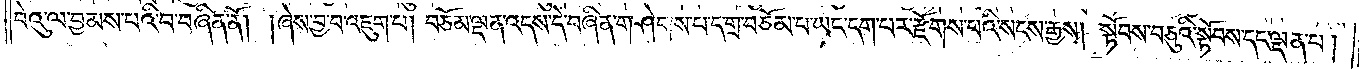བེའུ་ལ་བྱམས་པའི་བ་བཞིན་ནོ། །ཞེས་བྱ་བ་འཇུག་པ། བཅོམ་ལྡན་འདས་དེ་བཞིན་གཤེགས་པ་དགྲ་བཅོམ་པ་ཡང་དག་པར་རྫོགས་པའི་སངས་རྒྱས། སྟོབས་བཅུའི་སྟོབས་དང་ལྡན་པ་།
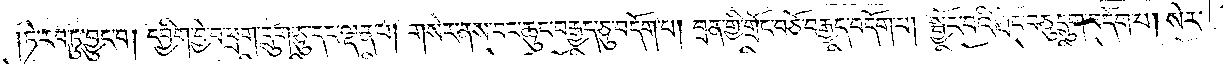ཏེ་རབ་ཏུ་བྱུང་བ། དབྱིག་བྱེ་བ་ཕྲག་དྲུག་ཅུ་དང་ལྡན་པ། གསེར་ནས་བང་ཆུང་བརྒྱད་ཅུ་བདོག་པ། བྲན་གྱི་གྲོང་བཅོ་བརྒྱད་བདོག་པ། སྦྱོར་བའི་གྲོང་བཅུ་དྲུག་བདོག་པ། སེར་
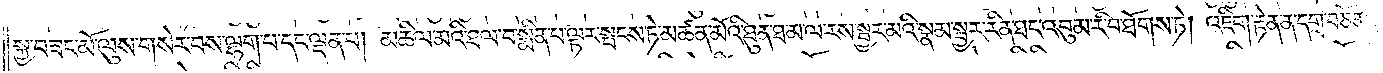སྐྱ་བཟང་མོ་ལུས་གསེར་བས་ལྷག་པ་དང་ལྡན་པ། མཆིལ་མའི་ཐལ་བ་སྨིན་པ་ལྟར་སྤངས་ཏེ་མཚན་མོའི་ཐུན་ཐ་མ་ལ་རས་སྦྱར་མའི་སྣམ་སྦྱར་རིན་ཐང་འབུམ་རི་བ་ཐོགས་ཏེ། འཇིག་རྟེན་ན་དགྲ་བཅོམ་
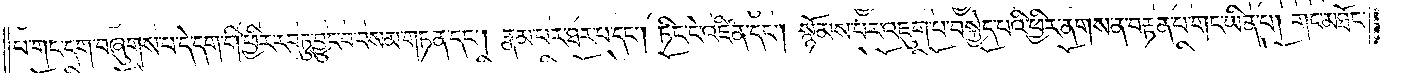པ་གང་དག་བཞུགས་པ་དེ་དག་གི་ཕྱིར་རབ་ཏུ་བྱུང་བ་བསམ་གཏན་དང༌། རྣམ་པར་ཐར་པ་དང༌། ཏིང་ངེ་འཛིན་དང༌། སྙོམས་པར་འཇུག་པ་བསྐྱེད་པའི་ཕྱིར་ནགས་ན་བརྟན་པ་གང་ཡིན་པ། གང་མཐོང་
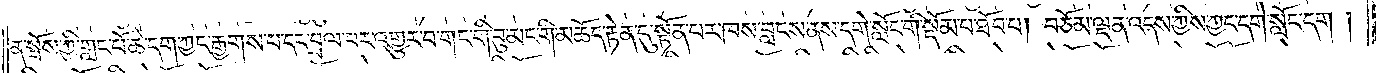ན་སྤོས་ཀྱི་གླང་པོ་ཆེ་དག་ཀྱང་རྒྱགས་པ་དང་བྲལ་བར་འགྱུར་བ་གང་གི་བུ་མང་གི་མཆོད་རྟེན་དུ་སྟོན་པར་ཁས་བླངས་ནས་དགེ་སློང་གི་སྡོམ་པ་ཐོབ་པ། བཅོམ་ལྡན་འདས་ཀྱིས་ཀྱང་དགེ་སློང་དག།
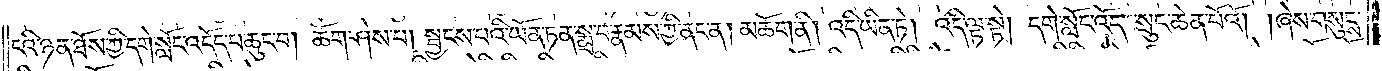ངའི་ཉན་ཐོས་ཀྱི་དགེ་སློང་འདོད་པ་ཆུང་བ། ཆོག་ཤེས་པ། སྦྱངས་པའི་ཡོན་ཏན་སྨྲ་བ་རྣམས་ཀྱི་ནང་ན། མཆོག་ནི། འདི་ཡིན་ཏེ། འདི་ལྟ་སྟེ། དགེ་སློང་འོད་སྲུང་ཆེན་པོའོ། །ཞེས་གསུངས་
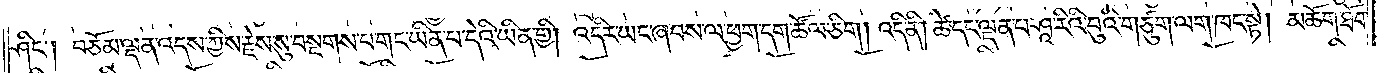ཤིང༌། བཅོམ་ལྡན་འདས་ཀྱིས་རྗེས་སུ་བསྔགས་པ་གང་ཡིན་པ་དེའི་ཡིན་གྱི། འདིར་ཡང་ཞབས་ལ་ཕྱག་དག་ཚོལ་ཅིག། འདི་ནི། ཚེ་དང་ལྡན་པ་ཤཱ་རིའི་བུའི་གཙུག་ལག་ཁང་སྟེ། མཆོག་ཐོབ་
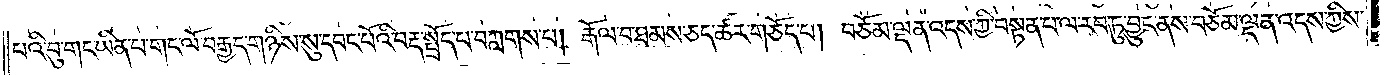པའི་བུ་གང་ཡིན་པ་གང་ལོ་བརྒྱད་གཉིས་སུ་དབང་པོའི་བརྡ་སྤྲོད་པ་བཀླགས་པ། རྒོལ་བ་ཐམས་ཅད་ཚར་གཅོད་པ། བཅོམ་ལྡན་འདས་ཀྱི་བསྟན་པ་ལ་རབ་ཏུ་བྱུང་ནས་བཅོམ་ལྡན་འདས་ཀྱིས་
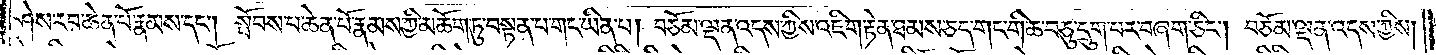ཤེས་རབ་ཆེན་པོ་རྣམས་དང༌། སྤོབས་པ་ཆེན་པོ་རྣམས་ཀྱི་མཆོག་ཏུ་བསྟན་པ་གང་ཡིན་པ། བཅོམ་ལྡན་འདས་ཀྱིས་འཇིག་རྟེན་ཐམས་ཅད་གང་གི་ཆ་བཅུ་དྲུག་པར་བཞག་ཅིང༌། བཅོམ་ལྡན་འདས་ཀྱིས།
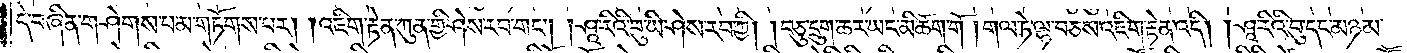དེ་བཞིན་གཤེགས་པ་མ་གཏོགས་པར། །འཇིག་རྟེན་ཀུན་གྱི་ཤེས་རབ་གང༌། །ཤཱ་རིའི་བུ་ཡི་ཤེས་རབ་ཀྱི། །བཅུ་དྲུག་ཆར་ཡང་མི་ཆོག་གོ །གལ་ཏེ་ལྷ་བཅས་འཇིག་རྟེན་འདི། །ཤཱ་རིའི་བུ་དང་མཉམ་
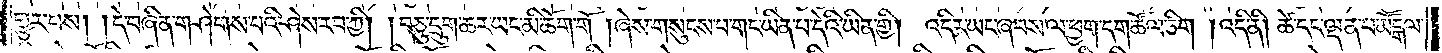གྱུར་པས། །དེ་བཞིན་གཤེགས་པའི་ཤེས་རབ་ཀྱི། །བཅུ་དྲུག་ཆར་ཡང་མི་ཆོག་གོ །ཞེས་གསུངས་པ་གང་ཡིན་པ་དེའི་ཡིན་གྱི། འདིར་ཡང་ཞབས་ལ་ཕྱག་དག་ཚོལ་ཅིག །འདི་ནི། ཚེ་དང་ལྡན་པ་མཽདྒལ་
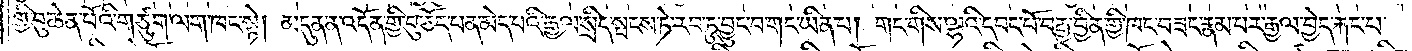གྱི་བུ་ཆེན་པོའི་གཙུག་ལག་ཁང་སྟེ། མདུན་ན་འདོན་གྱི་བུ་ཅོད་པན་མེད་པའི་རྒྱལ་སྲིད་སྤངས་ཏེ་རབ་ཏུ་བྱུང་བ་གང་ཡིན་པ། གང་གིས་ལྷའི་དབང་པོ་བརྒྱ་བྱིན་གྱི་ཁང་བཟང་རྣམ་པར་རྒྱལ་བྱེད་རྐང་པ་
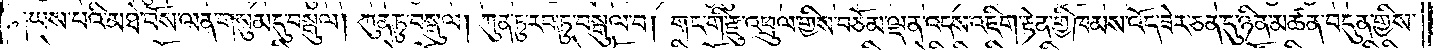གཡས་པའི་མཐེ་བོས་ལན་གསུམ་དུ་བསྒུལ། ཀུན་ཏུ་བསྒུལ། ཀུན་ཏུ་རབ་ཏུ་བསྒུལ་བ། གང་གི་རྫུ་འཕྲུལ་གྱིས་བཅོམ་ལྡན་འདས་འཇིག་རྟེན་གྱི་ཁམས་འོད་ཟེར་ཅན་དུ་ཉིན་མཚན་བདུན་གྱིས་
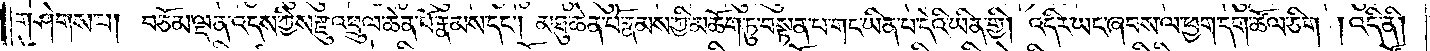གཤེགས་པ། བཅོམ་ལྡན་འདས་ཀྱིས་རྫུ་འཕྲུལ་ཆེན་པོ་རྣམས་དང༌། མཐུ་ཆེན་པོ་རྣམས་ཀྱི་མཆོག་ཏུ་བསྟན་པ་གང་ཡིན་པ་དེའི་ཡིན་གྱི། འདིར་ཡང་ཞབས་ལ་ཕྱག་དག་ཚོལ་ཅིག །འདི་ནི།
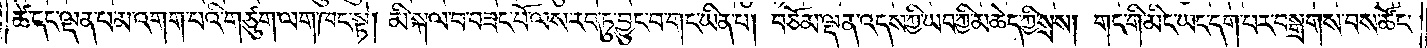ཚེ་དང་ལྡན་པ་མ་འགག་པའི་གཙུག་ལག་ཁང་སྟེ། མི་སྐལ་པ་བཟང་པོ་ལས་རབ་ཏུ་བྱུང་བ་གང་ཡིན་པ། བཅོམ་ལྡན་འདས་ཀྱི་ཡབ་ཀྱི་མཆེད་ཀྱི་སྲས། གང་གི་མིང་ཡང་དག་པར་བསྒྲགས་པས་ཚོང་
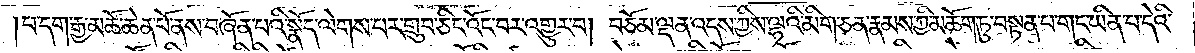པ་དག་རྒྱ་མཚོ་ཆེན་པོ་ནས་བཞོན་པའི་སྣོད་ལེགས་པར་གྲུབ་ཅིང་འོང་བར་འགྱུར་བ། བཅོམ་ལྡན་འདས་ཀྱིས་ལྷའི་མིག་ཅན་རྣམས་ཀྱི་མཆོག་ཏུ་བསྟན་པ་གང་ཡིན་པ་དེའི་
